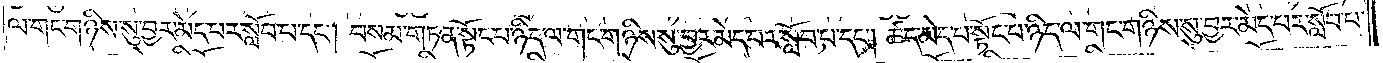ལ་གང་གཉིས་སུ་བྱར་མེད་པར་སློབ་པ་དང༌། བསམ་གཏན་སྟོང་པ་ཉིད་ལ་གང་གཉིས་སུ་བྱར་མེད་པར་སློབ་པ་དང༌། ཚད་མེད་པ་སྟོང་པ་ཉིད་ལ་གང་གཉིས་སུ་བྱར་མེད་པར་སློབ་པ་
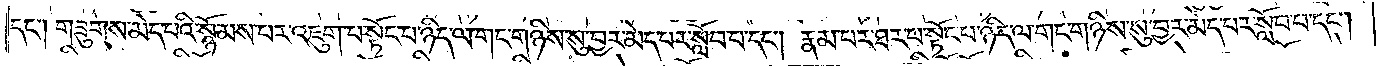དང༌། གཟུགས་མེད་པའི་སྙོམས་པར་འཇུག་པ་སྟོང་པ་ཉིད་ལ་གང་གཉིས་སུ་བྱར་མེད་པར་སློབ་པ་དང༌། རྣམ་པར་ཐར་པ་སྟོང་པ་ཉིད་ལ་གང་གཉིས་སུ་བྱར་མེད་པར་སློབ་པ་དང༌།
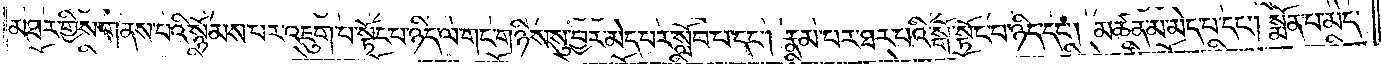མཐར་གྱིས་གནས་པའི་སྙོམས་པར་འཇུག་པ་སྟོང་པ་ཉིད་ལ་གང་གཉིས་སུ་བྱར་མེད་པར་སློབ་པ་དང༌། རྣམ་པར་ཐར་པའི་སྒོ་སྟོང་པ་ཉིད་དང༌། མཚན་མ་མེད་པ་དང༌། སྨོན་པ་མེད་
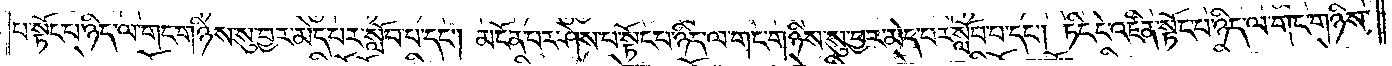པ་སྟོང་པ་ཉིད་ལ་གང་གཉིས་སུ་བྱར་མེད་པར་སློབ་པ་དང༌། མངོན་པར་ཤེས་པ་སྟོང་པ་ཉིད་ལ་གང་གཉིས་སུ་བྱར་མེད་པར་སློབ་པ་དང༌། ཏིང་ངེ་འཛིན་སྟོང་པ་ཉིད་ལ་གང་གཉིས་
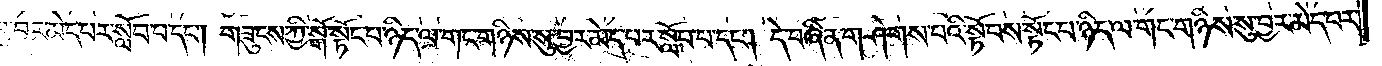བྱར་མེད་པར་སློབ་པ་དང༌། གཟུངས་ཀྱི་སྒོ་སྟོང་པ་ཉིད་ལ་གང་གཉིས་སུ་བྱར་མེད་པར་སློབ་པ་དང༌། དེ་བཞིན་གཤེགས་པའི་སྟོབས་སྟོང་པ་ཉིད་ལ་གང་གཉིས་སུ་བྱར་མེད་པར་
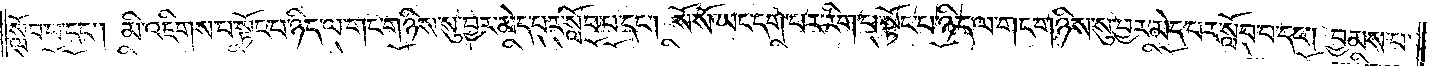སློབ་པ་དང༌། མི་འཇིགས་པ་སྟོང་པ་ཉིད་ལ་གང་གཉིས་སུ་བྱར་མེད་པར་སློབ་པ་དང༌། སོ་སོ་ཡང་དག་པར་རིག་པ་སྟོང་པ་ཉིད་ལ་གང་གཉིས་སུ་བྱར་མེད་པར་སློབ་པ་དང༌། བྱམས་པ་
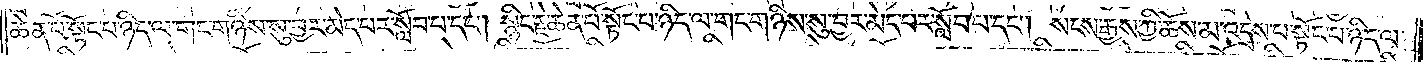ཆེན་པོ་སྟོང་པ་ཉིད་ལ་གང་གཉིས་སུ་བྱར་མེད་པར་སློབ་པ་དང༌། སྙིང་རྗེ་ཆེན་པོ་སྟོང་པ་ཉིད་ལ་གང་གཉིས་སུ་བྱར་མེད་པར་སློབ་པ་དང༌། སངས་རྒྱས་ཀྱི་ཆོས་མ་འདྲེས་པ་སྟོང་པ་ཉིད་ལ་
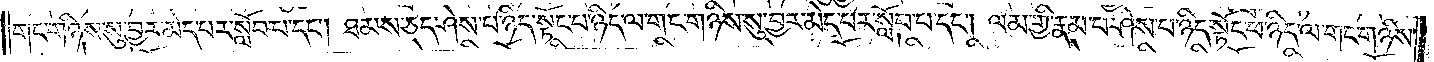གང་གཉིས་སུ་བྱར་མེད་པར་སློབ་པ་དང༌། ཐམས་ཅད་ཤེས་པ་ཉིད་སྟོང་པ་ཉིད་ལ་གང་གཉིས་སུ་བྱར་མེད་པར་སློབ་པ་དང༌། ལམ་གྱི་རྣམ་པ་ཤེས་པ་ཉིད་སྟོང་པ་ཉིད་ལ་གང་གཉིས་
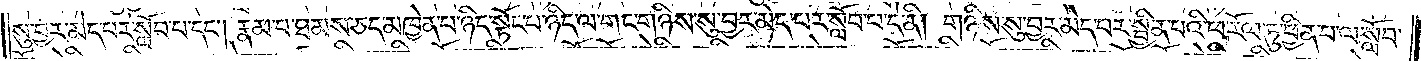སུ་བྱར་མེད་པར་སློབ་པ་དང༌། རྣམ་པ་ཐམས་ཅད་མཁྱེན་པ་ཉིད་སྟོང་པ་ཉིད་ལ་གང་གཉིས་སུ་བྱར་མེད་པར་སློབ་པ་དེ་ནི། གཉིས་སུ་བྱར་མེད་པར་སྦྱིན་པའི་ཕ་རོལ་ཏུ་ཕྱིན་པ་ལ་སློབ་
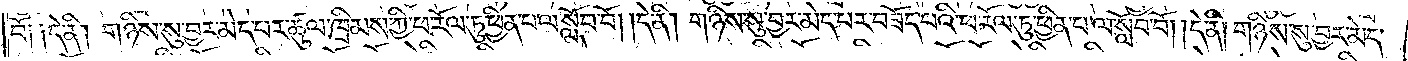བོ༑ ༑དེ་ནི། གཉིས་སུ་བྱར་མེད་པར་ཚུལ་ཁྲིམས་ཀྱི་ཕ་རོལ་ཏུ་ཕྱིན་པ་ལ་སློབ་བོ། །དེ་ནི། གཉིས་སུ་བྱར་མེད་པར་བཟོད་པའི་ཕ་རོལ་ཏུ་ཕྱིན་པ་ལ་སློབ་བོ། །དེ་ནི། གཉིས་སུ་བྱར་མེད་
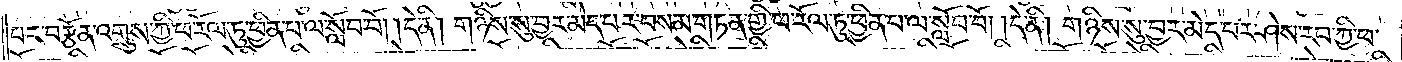པར་བརྩོན་འགྲུས་ཀྱི་ཕ་རོལ་ཏུ་ཕྱིན་པ་ལ་སློབ་བོ། །དེ་ནི། གཉིས་སུ་བྱར་མེད་པར་བསམ་གཏན་གྱི་ཕ་རོལ་ཏུ་ཕྱིན་པ་ལ་སློབ་བོ། །དེ་ནི། གཉིས་སུ་བྱར་མེད་པར་ཤེས་རབ་ཀྱི་ཕ་
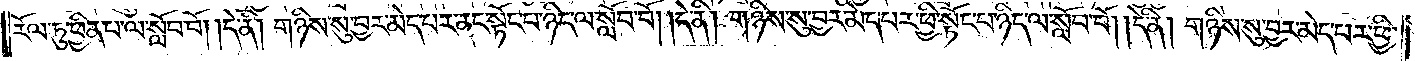རོལ་ཏུ་ཕྱིན་པ་ལ་སློབ་བོ། །དེ་ནི། གཉིས་སུ་བྱར་མེད་པར་ནང་སྟོང་པ་ཉིད་ལ་སློབ་བོ། །དེ་ནི། གཉིས་སུ་བྱར་མེད་པར་ཕྱི་སྟོང་པ་ཉིད་ལ་སློབ་བོ། །དེ་ནི། གཉིས་སུ་བྱར་མེད་པར་ཕྱི་
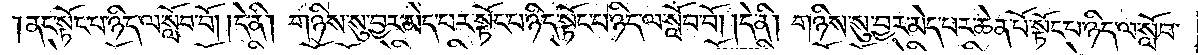ནང་སྟོང་པ་ཉིད་ལ་སློབ་བོ། །དེ་ནི། གཉིས་སུ་བྱར་མེད་པར་སྟོང་པ་ཉིད་སྟོང་པ་ཉིད་ལ་སློབ་བོ། །དེ་ནི། གཉིས་སུ་བྱར་མེད་པར་ཆེན་པོ་སྟོང་པ་ཉིད་ལ་སློབ་
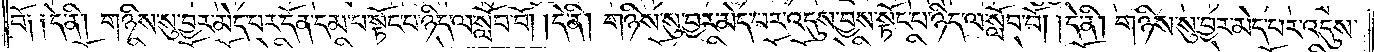བོ༑ ༑དེ་ནི། གཉིས་སུ་བྱར་མེད་པར་དོན་དམ་པ་སྟོང་པ་ཉིད་ལ་སློབ་བོ། །དེ་ནི། གཉིས་སུ་བྱར་མེད་པར་འདུས་བྱས་སྟོང་པ་ཉིད་ལ་སློབ་བོ། །དེ་ནི། གཉིས་སུ་བྱར་མེད་པར་འདུས་
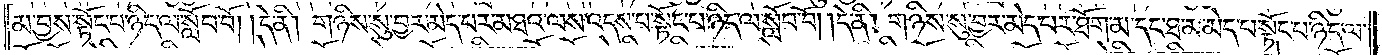མ་བྱས་སྟོང་པ་ཉིད་ལ་སློབ་བོ། །དེ་ནི། གཉིས་སུ་བྱར་མེད་པར་མཐའ་ལས་འདས་པ་སྟོང་པ་ཉིད་ལ་སློབ་བོ། །དེ་ནི། གཉིས་སུ་བྱར་མེད་པར་ཐོག་མ་དང་ཐ་མ་མེད་པ་སྟོང་པ་ཉིད་ལ་
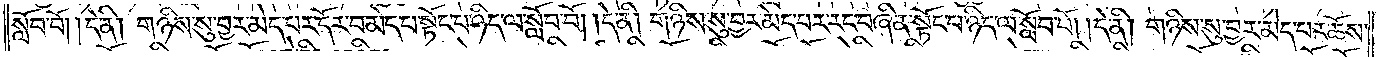སློབ་བོ། །དེ་ནི། གཉིས་སུ་བྱར་མེད་པར་དོར་བ་མེད་པ་སྟོང་པ་ཉིད་ལ་སློབ་བོ། །དེ་ནི། གཉིས་སུ་བྱར་མེད་པར་རང་བཞིན་སྟོང་པ་ཉིད་ལ་སློབ་བོ། །དེ་ནི། གཉིས་སུ་བྱར་མེད་པར་ཆོས་
